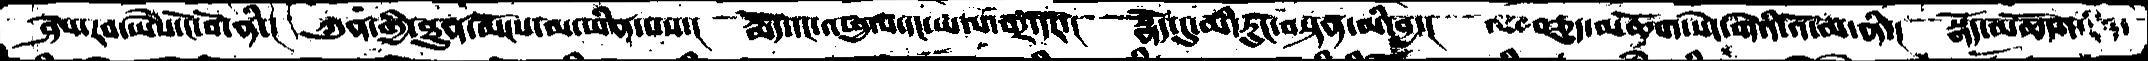ཤེས་རབ་ཡཻས་ངོ་བོ་ནི་།  ཀུན་གྱི་ཐུན་མོངས་མ་ཡིན་པས་།  རྨོད་དང་འཕྲུལ་དང་ཡལ་བར་དོར་།  སྣོད་དུ་མི་རུང་བསྟན་མི་བྱ་།  བཅུད་མཆོག་སེང་གེའི་འོ་མ་ནི་།  སྣོད་མཆོག་
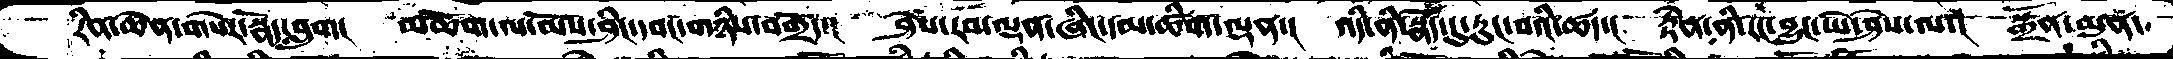རིན་ཆེན་གསེར་སྣོད་བླུག།  མཆོག་ལ་མོས་ཤིང་དབང་གཉིས་བགྲོད་།  ཤེས་རབ་ལྡན་ཞིང་དམ་ཚིག་ལྡན་། འདི་ནི་སྣོད་དུ་རུང་བའི་ཚད་།  རྟེན་ནི་རང་བྱུང་ཡེ་ཤེས་ལ་།  སྒྲོན་མུན་
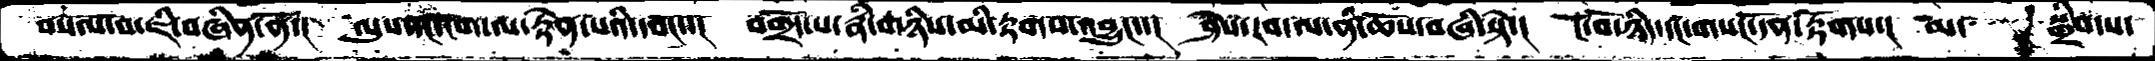གསལ་བ་ཇི་བཞིན་ནོ་།  ལུས་དང་ངག་ལ་རྟེན་པའི་དབང་་།  བགྲོད་པ་རྣཾ་གཉིས་མི་རྟགས་འབྱུང་་།  ཤེས་རབ་ལ་ནི་ཆོས་བཞི་སྟེ་།  ངོ་བོ་ཉིད་དང་གསང་དོན་རྟོགས་།  མ་  སྒྲིབ་པ་
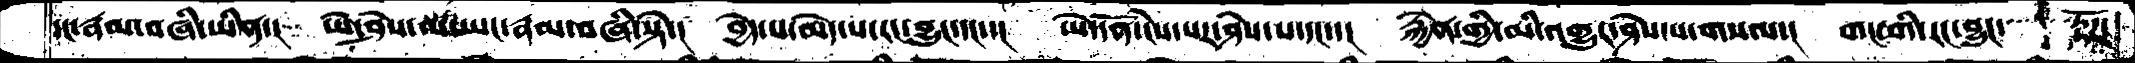དང་རྣམ་བཞི་ཡིན་།  ཡེ་ཤེས་ལ་ཡང་རྣམ་བཞི་སྟེ་།   བྱེད་པ་མེད་པ་རང་བྱུང་དང་་།  ཡེ་དོན་ངེས་པར་ཤེས་པ་དང་་།  རྐྱེན་གྱི་མི་འགྱུར་ཤེས་པ་གསལ་།  གང་གི་རང་བྱུང་  རྟོཌ་
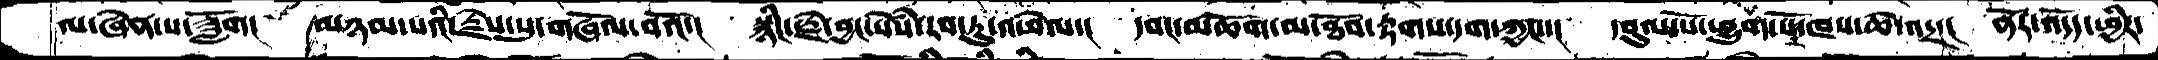ལ་ཞེན་པ་ཟློག།  མཉམ་པའི་རྗེས་སུ་གཞོལ་བའོ་།  སྙིང་རྗེ་བྱང་སེཾས་རབ་ཏུ་འཕེལ་།  དབང་མཆོག་མ་ཐོབ་རྟགས་དག་ཀྱང་་།  དབུལ་པོ་ཕྱུག་པོ་ཁས་ཆེ་འདྲ་།  ནོར་འདོད་ཕྱིར་
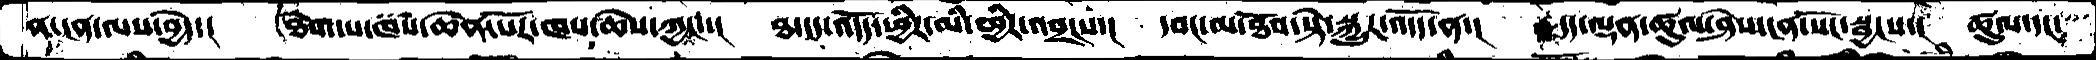ན་ངན་ལས་བྱེད་།  ཐེགཔ་ཁས་ཆེན་པོར་ཁས་ཆེས་ཀྱང་་།  ཐ་དད་འདོད་ཕྱིར་མི་ཕྱིར་འབྲངས་།  དབང་མ་ཐོབ་སྟེ་སྐྱུར་འདོད་ན་།  དད་ལྡན་ཚུལ་ཤེས་ངན་སོང་སྦྱངས་།  ཚུལ་དང་
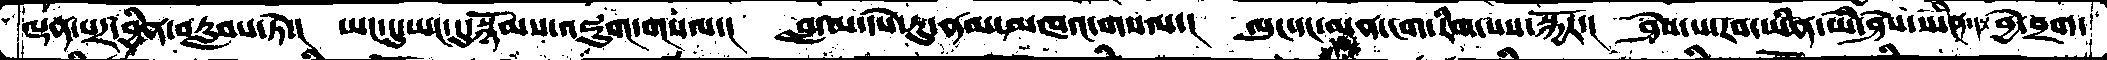ལྡན་པར་བྱིན་བརླབས་ཏེ་།  ཡང་དུ་ཡང་དུ་སྙོམས་འཇུག་གསལ་།  བླ་མ་དཔེ་རུ་ནམ་མཁའ་གསལ་།  ལུང་དང་མན་ངག་རིག་པས་སྐྱོར་།  ཤེས་པ་རབ་ཡིན་ཡེ་ཤེས་ཡིན་།  བྱེ་བྲག་
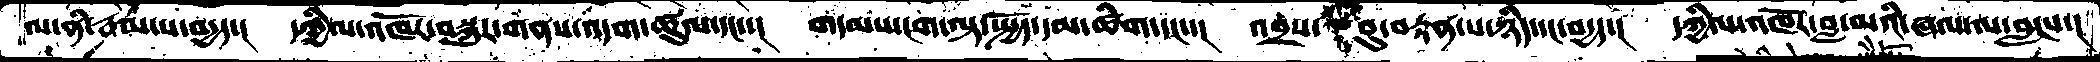ལ་ནི་རྣམ་པ་བདྱད་།  དཀྱིལ་འཁོར་བསྐུར་གནས་འདག་ཚུལ་དང་་།  གདམས་ངག་ལྟ་སྤྱོད་དམ་ཚིག་དང་་།  འབྲས་བུ་བརྟན་པ་ཉིད་དང་བདྱད་།  དཀྱིལ་འཁོར་བླ་མའི་ཞལ་ལ་བླངས་།
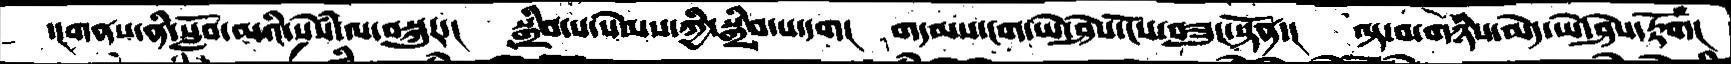དངགནས་ནི་སློབ་མའི་སེཾས་ལ་བསྐུར་།  སྒྲིབ་པ་སེམས་ཀྱི་སྒྲིབ་པ་དག།  གདམས་ངག་ཡེ་ཤེས་ངོས་བཟུང་སྟོན་།  ལྟ་བ་གཉིས་མེད་ཡེ་ཤེས་རྟོག།
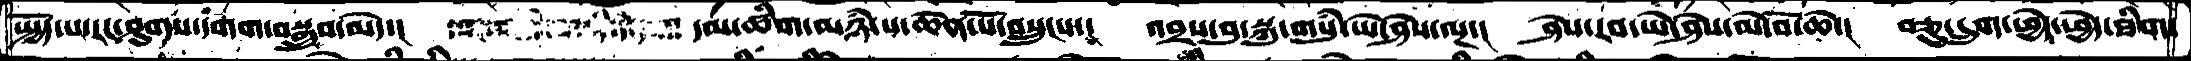སྤྱོད་པ་རང་ཤུགས་དགག་བསྒྲུབ་མེད་།  དམ་ཚིག་མཉཾ་པ་ཆེན་པོ་བསྲུངས་།  འབྲས་བུ་སྐུ་གསུཾ་ཡེ་ཤེས་ལྔ་།  ཤེས་རབ་ཡེ་ཤེས་མེ་བོ་ཆེ་།  བཅུ་དྲུག་ཕྱེད་ཕྱེད་ཐིག་
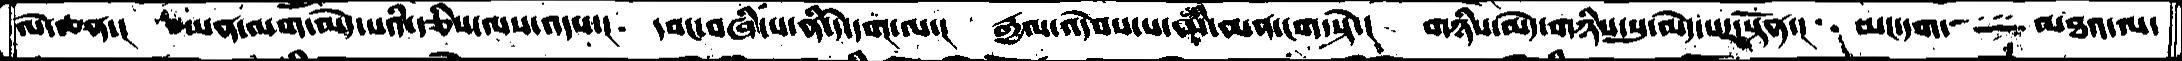ལེ་ཅན་།  ཡན་ལག་མེད་པའི་རྩིས་ལས་འདས་།  དབང་བཞི་པ་ནི་དེ་དག་ལ་།  རྒྱལ་འདེབས་པ་ནི་མན་ངག་སྟེ་།  གཉིས་མེད་གཉིསུ་མེད་པར་སྟོན་།  མར་ངག་    མཐའ་ལ་
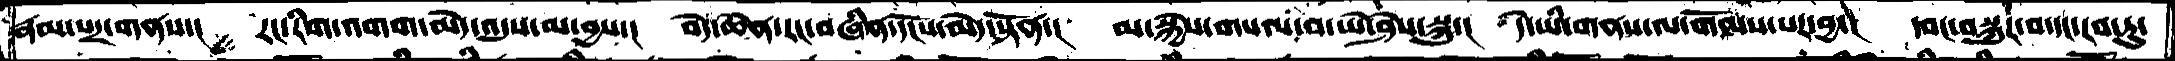རྣམ་པར་གནས་།  རང་རིག་འགག་མེད་འདུས་མ་བྱས་།  བདེ་ཆེན་རང་བཞིན་དངོས་མེད་སྟོན་།  མ་སྐྱེས་གསལ་བ་ཡེ་ཤེས་སྐུ་།  དེ་ཡི་གནས་ལ་གོམས་པར་བྱ་།  དབང་བསྐུར་བ་དང་རབ་ཏུ་
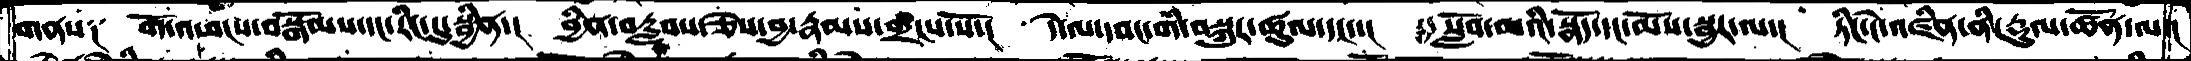གནས༑  གོ་འཕངས་བསྒོམས་དང་རིང་དུ་སྦྱིན་།  བྱིན་བརླབས་ཅེས་བྱ་རྣམས་གྲངས་སོ་།  དེ་ལ་དབང་གི་བསྐུར་ཚུལ་དང་་། སློབ་མའི་སྣོད་དང་མོས་སྦྱར་ལ་།  ཏིང་ངེ་འཛིན་ནི་རྡུལ་ཚོན་ལ་།
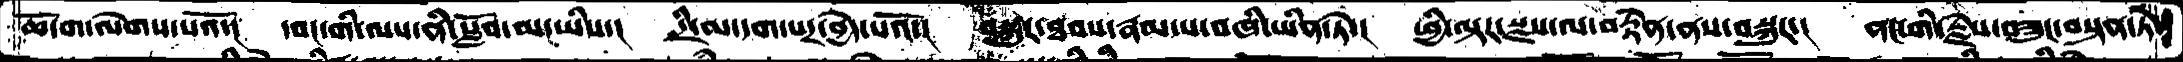ཆོ་ག་ལེགས་པའོ་།  དབང་གི་ལས་ནི་སློབ་མ་ཡིས་།  དྲི་མ་དག་པར་བྱེད་པའོ་།  བསྐུར་ཐབས་རྣམ་པ་བཞི་ཡིན་ཏེ་།  ཕྱི་ལྟར་སྫས་ལ་བརྟེན་ནས་བསྐུར་།  ནང་གི་རྗེས་བཟུང་བསྟན་ཏེ་
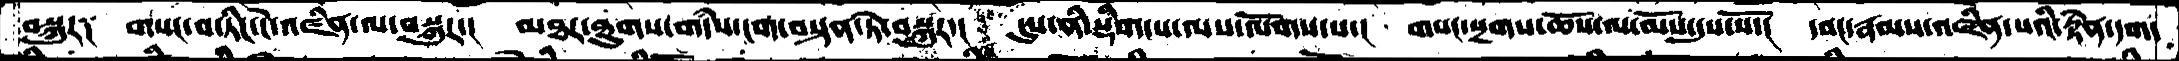བསྐུར༑  གསང་བ་ཏིང་ངེ་འཛིན་ལ་བསྐུར་།  མཐར་ཐུགས་གདཾས་ངག་བསྟན་ཏེ་བསྐུར་།  དུས་ནི་སྡིག་པ་ལས་སོགས་པ་།  གསང་སྔགས་ཆོས་ལ་མོས་དུས་སོ་།  དབང་རྣམས་འཛིན་པའི་རྟེན་དག་
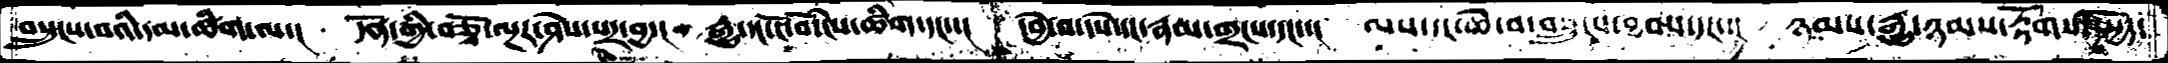བསྲུང་བའི་དམ་ཚིག་ལ་།  དོན་གྱི་བཅྭོ་ལྔར་ཤེས་པར་བྱ་།  རྒྱུ་དང་ངོ་བོ་ངེས་ཚིག་དང་་།  དབྱེ་བ་དཔེ་དང་རྣམ་གྲངས་དང་་།  ལས་དང་ཆེ་བ་བསྲུངས་ཐབས་དང་་།  ཉམས་རྒྱུ་ཉམས་རྟོགས་སྤྱོད་
